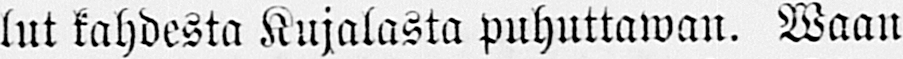lut kahdesta Kujalasta puhuttawan. Waan
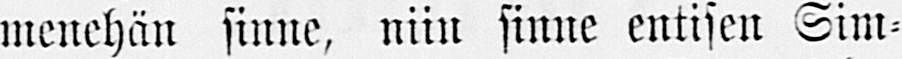menehän sinne, niin sinne entisen Sim-
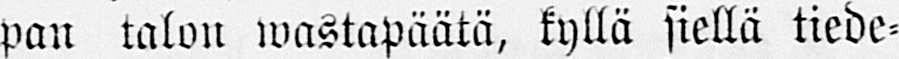pan talon wastapäätä, kyllä siellä tiede-
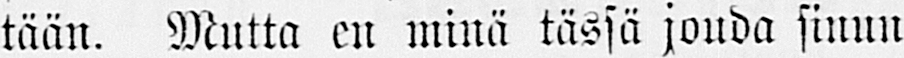tään. Mutta en minä tässä jouda sinun
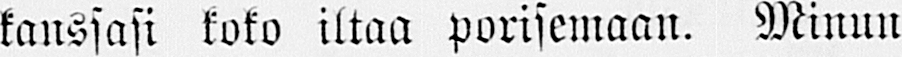kanssasi koko iltaa porisemaan. Minun
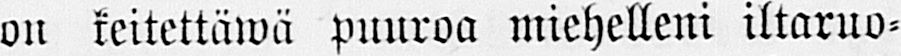on keitettäwä puuroa miehelleni iltaruo-
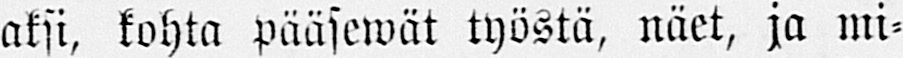aksi, kohta pääsewät työstä, näet, ja mi-
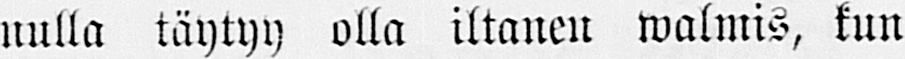nulla täytyy olla iltanen walmis, kun
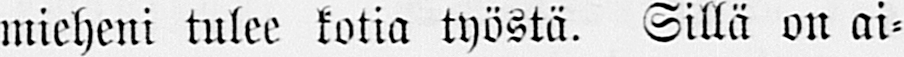mieheni tulee kotia työstä. Sillä on ai-
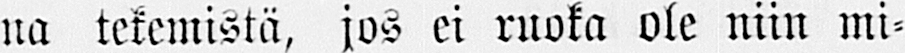na tekemistä, jos ei ruoka ole niin mi-
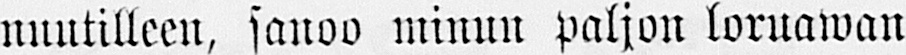nuutilleen, sanoo minun paljon loruawan
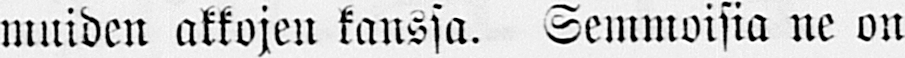muiden akkojen kanssa. Semmoisia ne on
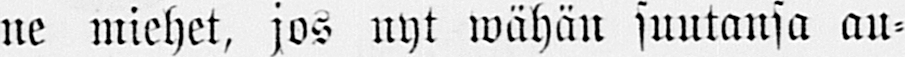ne miehet, jos nyt wähän suutansa au-
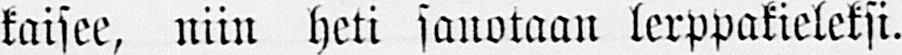kaisee, niin heti sanotaan lerppakieleksi.
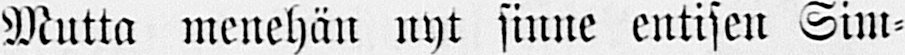Mutta menehän nyt sinne entisen Sim-
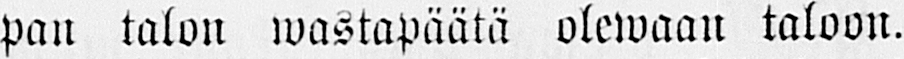pan talon wastapäätä olewaan taloon.
